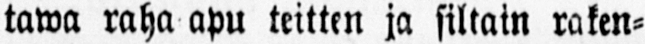tawa raha apu teitten ja siltain raken-
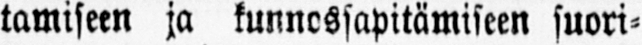tamiseen ja kunnossapitämiseen suori-
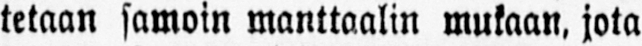tetaan samoin manttaalin mukaan, jota
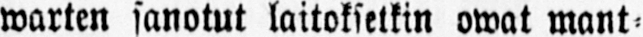warten sanotut laitoksetkin owat mant-
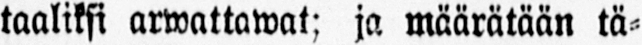taaliksi arwattawat; ja määrätään tä-
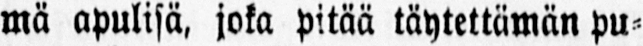mä apulisä, joka pitää täytettämän pu-
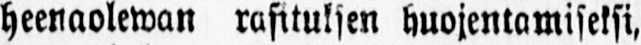heenaolevan rasituksen huojentamiseksi,
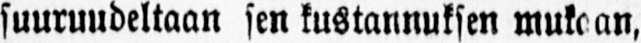suuruudeltaan sen kustannuksen mukaan,
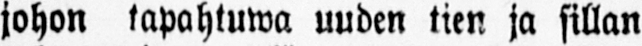johon tapahtuwa uuden tien ja sillan
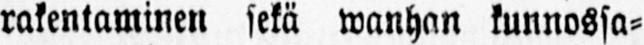rakentaminen sekä wanhan kunnossa-
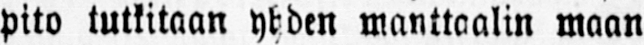pito tutkitaan yhden manttaalin maan
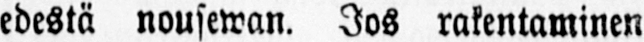edestä nousewan. Jos rakentaminen
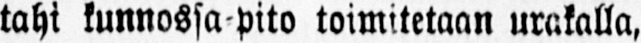tahi kunnossa-pito toimitetaan urakalla,
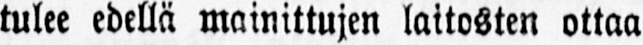tulee edellä mainittujen laitosten ottaa
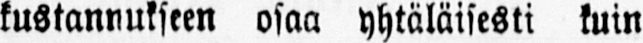kustannukseen osaa yhtäläisesti kuin
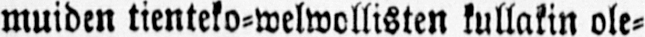muiden tienteko-welwollisten kullakin ole-
